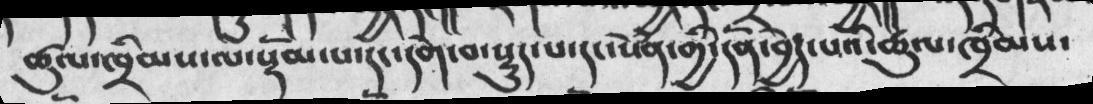ཚུལ་ཁྲིམས་ལ་སྡོམ་པ་དང་དགེ་བ་སྡུད་པ་དང་སེཾན་གྱི་དོན་བྱེད་པའི་ཚུལ་ཁྲིམས་
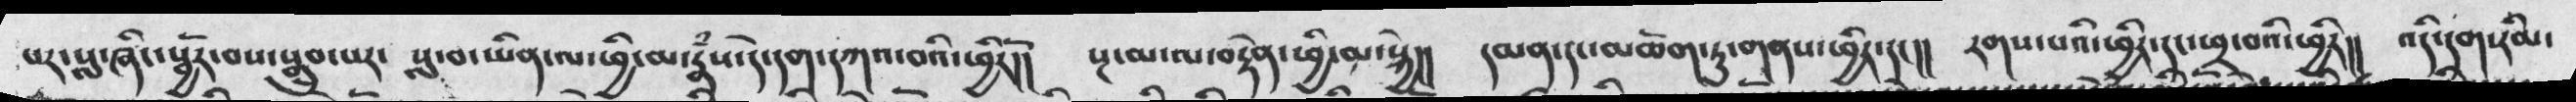པར་སླ་ཞིང་སྦྱོར་བས་སྒྲུབ་པར་ སླ་བ་ཡིན་ལ་ཕྱི་མ་རྣཾས་དེ་དག་དཀའ་བའི་ཕྱིརོ།།  སྔ་མ་ལ་བརྟེན་ཕྱི་མ་སྐྱེ།།  དམན་དང་མཆོག་ཏུ་གནས་ཕྱིར་དང།།  རགས་པའི་ཕྱིར་དང་ཕྲ་བའི་ཕྱིར།།  འདི་དག་རིམ་
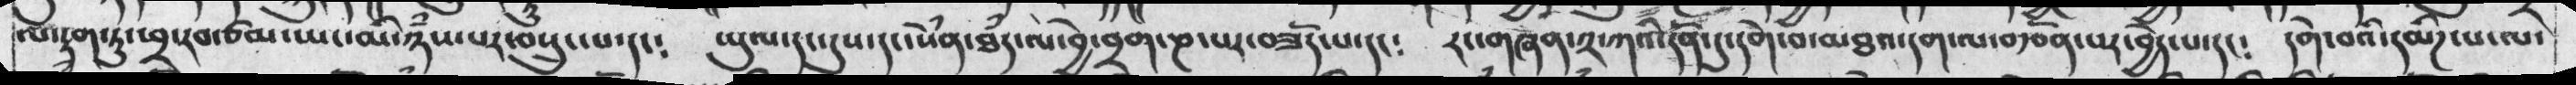ལ་རྟག་ཏུ་ཕྲ་རབ་ཙམ་ཡང་མི་ཉཾས་པར་བསྲུང་པ་དང༴   ཡུལ་དང་དུས་དང་སེཾན་ཐཾད་ལ་བྱེ་བྲག་ཎ་པར་བཟོད་པ་དང༴   རང་གཞན་༢་ཀའི་དོན་དུ་དགེ་བ་མཐའ་དག་ལ་བརྩོན་པར་བྱེད་དང༴   དགེ་བའི་དམིཌ་པ་ལ་
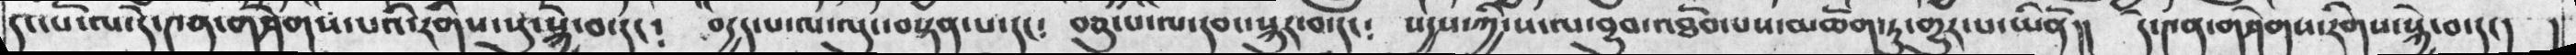དང་པོ་ལ་དེ་༤ན་གཤེགས་པའི་རིགས་སུ་སྐྱེ་བ་དང༴ བདྱད་པ་ལ་ལུང་བསྟན་པ་དང༴ བཅུ་པ་ལ་དབང་སྐུར་བ་དང༴ སདྱས་ཀྱི་ས་ལ་བྱུབ་འཐོབ་པས་མཆོག་ཏུ་གྱུར་པ་ཡིནོ།། དེ་༤ན་གཤེགས་རིགས་སྐྱེ་བ་དང། །
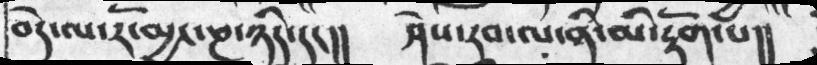བདེ་ལ་རོ་མྱང་ཎ་ཉིད་དང།།  ཤེས་རབ་ལ་ནི་མི་རྟོག་པ།།
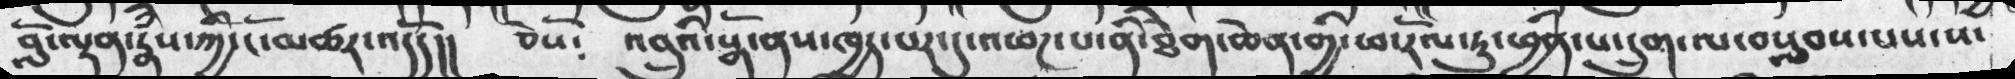བློ་ལྡན་རྣཾས་ཀྱི་ངོ་མཚར་འདོད།། ཅེསོ༴ འབྲུའི་སྒོ་ནས་ལཁྱད་པར་དུ་འཕཌ་པ་ནི་ཐེག་ཆེན་གྱི་ཕ་རོལ་ཏུ་ཕྱིན་པ་དྲུག་ལ་བསླབས་པས་ས་
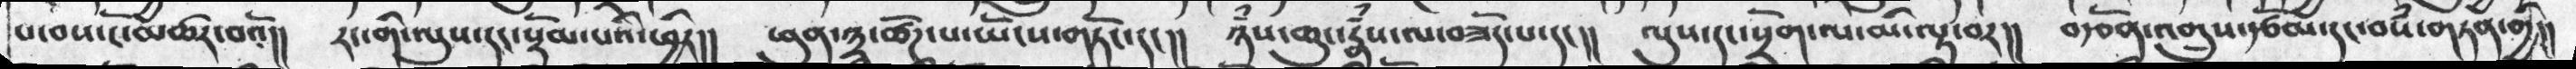པ་བས་ངོ་མཚར་བའོ།།  རང་གི་ལུས་དང་སྡོམ་པའི་ཕྱིར།། ཕུན་༣་ཚོཌ་པ་ཡོངས་གཏོང་དང།།  ཉཾས་ཆུང་རྣཾས་ལ་བཟོད་པ་དང།།  ལུས་དང་སྲོག་ལ་མི་ལྟ་བར།།  བརྩོན་འགྲུས་རྩོམ་དང་བསམ་གཏན་གྱི།།
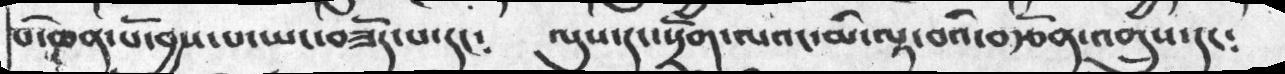པ་ཆེན་པོ་བྱས་པ་ཡང་བཟོད་པ་དང༴ ལུས་དང་སྲོག་ལའང་མི་ལྟ་བའི་བརྩོན་འགྲུས་དང༴
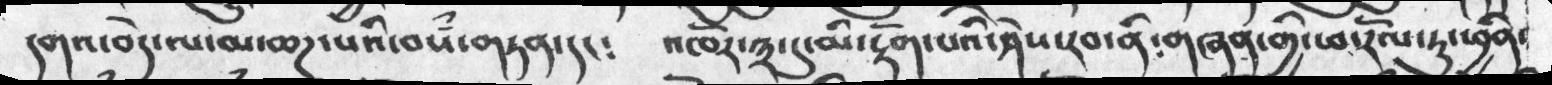དགའ་བདེ་ལ་མ་ཆཌ་པའི་བསཾ་གཏན་དང༴  འཁོར་༣་དུ་མི་རྟོག་པའི་ཤེས་རབ་ནི༴གཞན་གྱི་ཕ་རོལ་ཏུ་ཕྱིན་
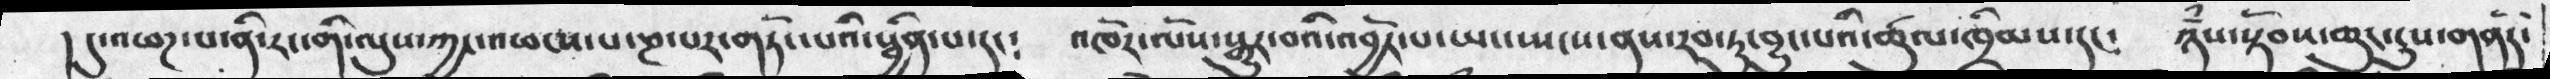། དུ་འཕཌ་པ་ནི་རང་གི་ལུས་ཀྱང་འཕངས་པ་ཎ་པར་གཏོང་པའི་སྦྱིན་པ་དང༴ འཁོར་ལོས་སྒྱུར་བའི་འབྱོར་པ་ཡང་སྤངས་ནས་རབ་ཏུ་བྱུང་པའི་ཚུལ་ཁྲིམས་དང༴ ཉཾས་སྟོབས་ཆུང་དུས་གནོད་
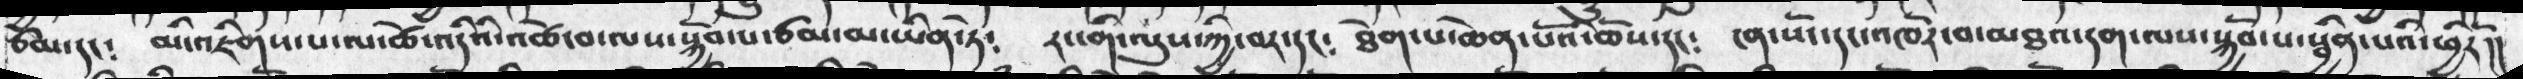ཙོམ་དང༴  མི་འཇིགས་པ་ལ་ཚེ་འདིའི་འཚེ་བ་ལས་སྐྱོབ་པ་ཙམ་མ་ཡིན་ཏེ༴  རང་གི་ལུས་ཀྱི་བར་དང༴  ཐེག་པ་ཆེན་པོའི་ཆོས་དང༴  ངན་སོང་དང་འཁོར་བ་མཐའ་དག་ལས་སྐྱོབ་པ་སྦྱིན་པའི་ཕྱིརོ།།
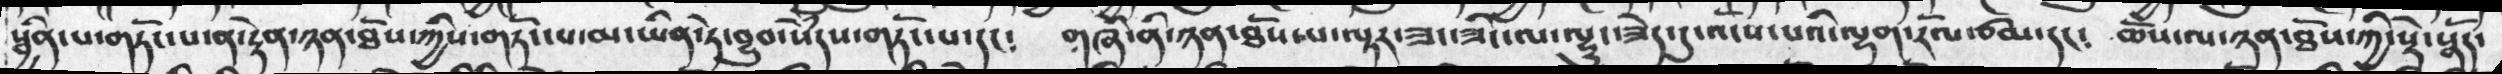སྦྱིན་པ་གཏོང་པ་ན་རྟེན་ཉན་ཐོས་ཀྱིས་གཏོང་པ་མ་ཡིན་ཏེ་བྱུབ་སེཾདས་གཏོང་པ་དང༴ གཞི་ནི་ཉན་ཐོས་པ་ལྟར་ཟང་ཟིང་ལ་ལྷུང་ཟེད་དུ་འོངས་པའི་ལྷག་རོལ་ཙམ་དང༴ ཆོས་ལ་ཉན་ཐོས་ཀྱི་སྡེ་སྣོད་
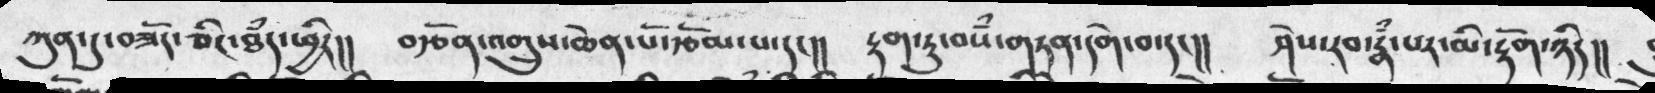ཀུན་ཏུ་བཟོད་ཅིང་ཐཾད་ཕྱིར།།  བརྩོན་འགྲུས་ཆེན་པོ་རྩོམ་པ་དང།།  རྟག་ཏུ་བསཾ་གཏན་དགེ་བ་དང།།  ཤེས་རབ་རྣཾ་པར་མི་རྟོག་ཉིད།།
